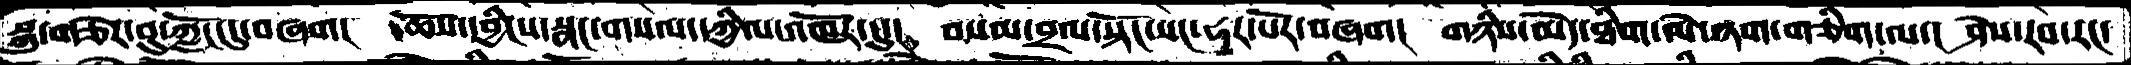སྐུ་གཅེར་བུ་ཀློང་དུ་བཞག།  ཆོས་དབྱིངས་སྣང་གསལ་དཀྱིལ་འཁོར་དུ་།  བསམ་བྲལ་སྟོང་སང་ཧར་པོར་བཞག།  གཉིས་མེད་ཐིག་ལེ་ཉག་གཅིག་ལ་།  ཤེས་རབ་རང་
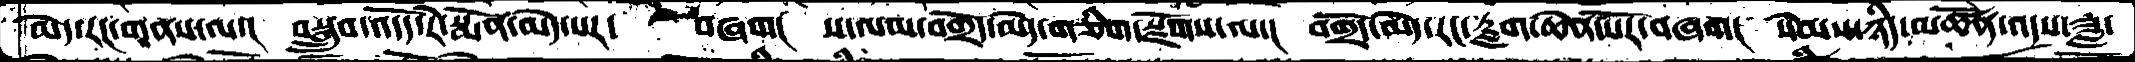མེད་རང་གནས་ལ་།  བསྒྲུབ་འདོད་རེ་སྨོན་མེད་པར་  བཞག།  ས་ལམ་བགྲོད་མེད་གཅིག་སྫོགས་ལ་།  བགྲོད་མེད་རང་རླག་ཆེན་པོར་བཞག།  སེམས་ཉིད་མཚོན་འདས་ཟླ་
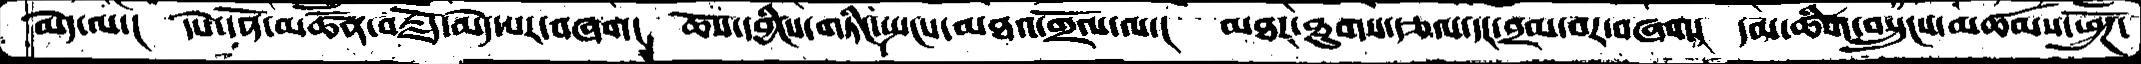མེད་ལ་།  དཔེ་དོན་མཚོན་བརྗོད་མེད་པར་བཞག།  ཆོོས་དབྱིངས་གཏིང་སྤངས་མཐའ་གྲོལ་ལ་།  མཐར་ཐུགས་རྩལ་དང་བྲལ་བར་བཞག།  དམ་ཚིག་བསྲུངས་མཚམས་ཕྱོཌ་
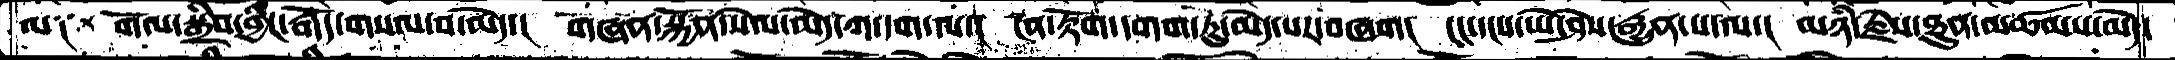ལ༑ གོལ་སྒྲིབ་བྱིང་རྒོད་གསལ་བ་མེད་། གཞན་སྐྱོན་སེལ་མེད་ཀ་དག་ལ་། ངན་རྟོག་དགག་ཏུ་མེད་པར་བཞག། ངང་དངས་ཡེ་ཤེས་རྒྱུན་པ་ལ་། མཉཾ་རྗེས་ཐུན་མཚམས་མེད་
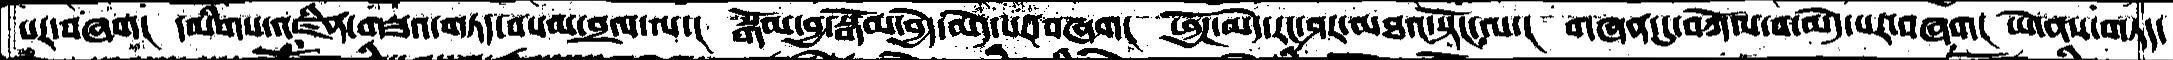པར་བཞག།  དམིགས་འཛིན་གཟའ་གཏད་བསམ་བྲལ་ལ་།  སྒོམ་བྱ་སྒོམ་བྱེད་མེད་པར་བཞག།  ཕྱོཌ་མེད་རང་ཤར་མཐའ་སྟོང་ལ་།།  གཞན་དུ་བཀོལ་བ་མེད་པར་བཞག།  ཡེ་ནས་གཏད་
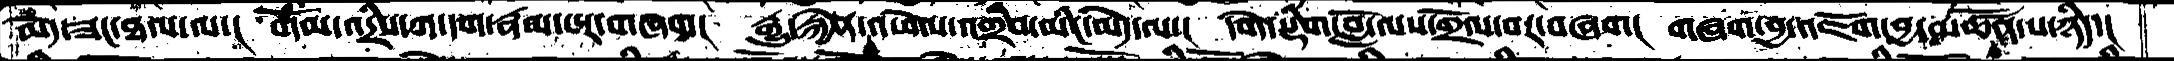མེད་ཟང་ཐལ་ལ་།  གོམ་འདྲིས་ཀ་དག་རྣམ་པར་བཞག།  རྒྱུ་རྐྱེན་འཕེལ་འགྲིབ་མིང་མེད་ལ་།  དགེ་སྡིག་བློ་ལས་གྲོལ་བར་བཞག།  གཞག་བྱ་འཇོག་བྱ་མཚོན་པ་ཉིད་།
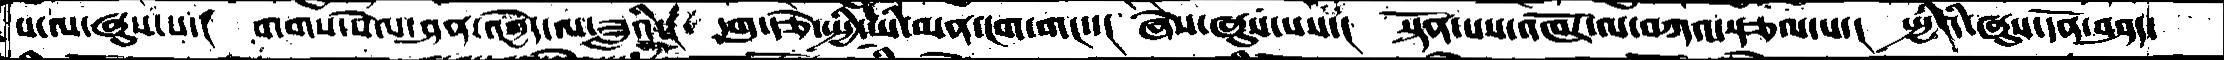པ་ལ་ཞུས་པ་། གགས་སེལ་ཤན་འགྱེད་ལ་ཟླའི་མེད་། དགུ་རྩེ་སྤྱི་ཡི་མན་ངག་གང་་། ཞེས་ཞུས་པས་། སྟོན་པས་འཁོར་ལ་བཀའ་སྩལ་པ་། སྤྱིའི་ཞུས་དོན་བཤད་
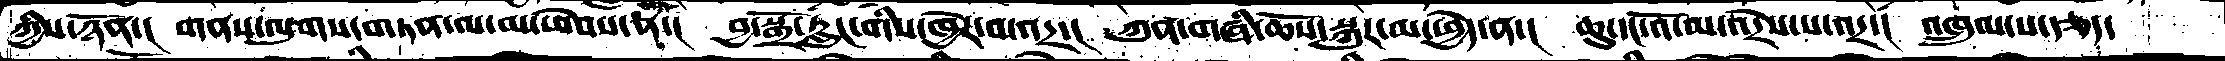ཀྱིས་ཉོན་།  གནས་ལུགས་གཏན་ལ་མ་ཕེབས་ན་།  བྱ་རྒོད་རླུང་གིས་ཁྱེར་བ་འདྲ་།  ཀུན་གཞི་ཆོས་སྐུར་མ་ཕྱེད་ན་།  ཆུ་དང་འོ་མ་འདྲེས་པ་འདྲ་།  འཁྲུལ་པ་རྩད་
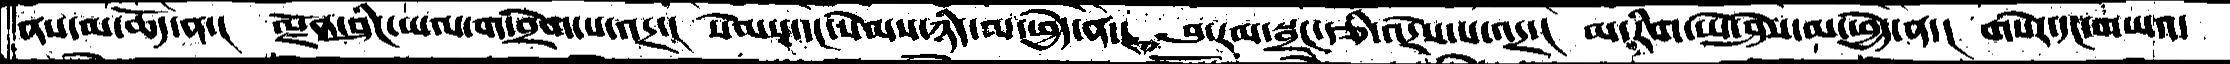ནས་མ་ཆོད་ན་།  ལྗོན་ཤིང་ཡལ་ག་བྲེག་པ་འདྲ་།  སེམས་དང་སེམས་ཉིད་མ་ཕྱེད་ན་།  བུ་རམ་སྦྲང་རྩི་འདྲེས་པ་འདྲ་།  མ་རིག་ཡེ་ཤེས་མ་ཕྱེད་ན་།  གསེར་དང་གཡའ་
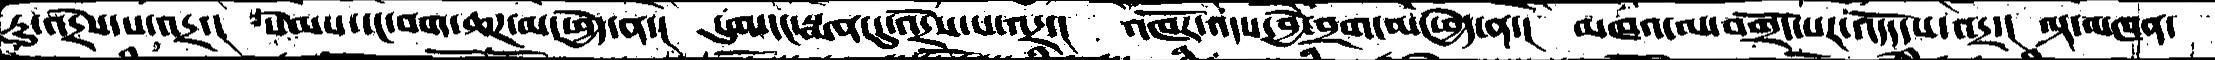རུ་འདྲེས་པ་འདྲ་།  སེམས་དང་བག་ཆཌ་མ་ཕྱེད་ན་།  དུག་དང་སྨན་དུ་འདྲེས་པ་འདྲ་། འཁོར་འདས་བྱེ་བྲག་མ་ཕྱེད་ན་།  མཁའ་ལ་བགྲོད་པར་འདོད་པ་འདྲ་།  ལྟ་མཁན་
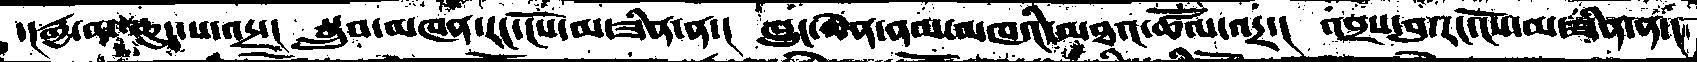་།རྒྱ་ན་ཆུད་པ་འདྲ་།  སྒྲུབ་མཁན་རང་ངོས་མ་ཟིན་ན་།  ཁྱུང་ཆེན་ནམ་མཁའི་མཐའ་ཚོལ་འདྲ་།  འབྲས་བུ་རང་ངོས་མ་ཟིན་ན་།
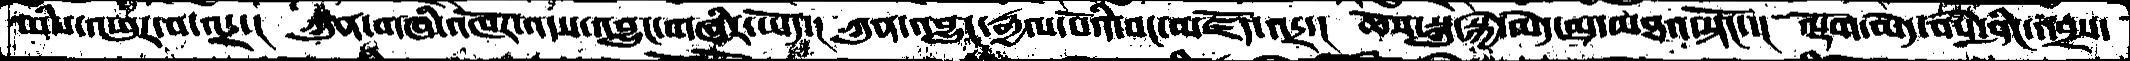ཡིས་འཕུར་བ་འདྲ་།  ཀུན་གཞི་འཁོར་འདས་འབྱུང་གཞིར་ཡོད་།  ཀུན་འབྱུང་རྒྱལ་པོའི་དབང་མཛོད་འདྲ་།  ཆོས་སྐུ་སྐྱེ་མེད་མུ་མཐའ་སྟོང་།  ལྡོག་མེད་བསེ་ཤིང་འབྲས་
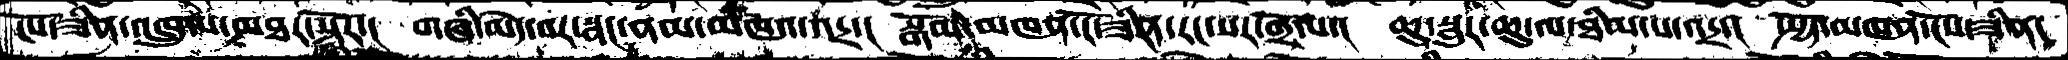ངོས་ཟིན་འཁྲུལ་མཐར་སྟོར་།  གཞི་མེད་བར་སྣང་ནམ་མཁའ་འདྲ་།  སྒོམ་མཁན་ངོ་ཟིན་རང་སར་གྲོལ་།  ཆུ་སྦུར་ཆུ་ལ་ཐིམ་པ་འདྲ་།  སྤྱོད་མཁན་ངོས་ཟིན་
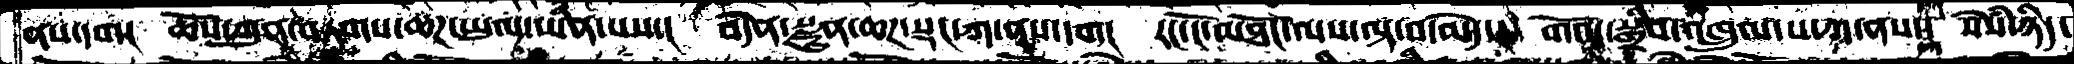ནས་དག། ཆོས་ཀུན་བཏགས་ཆཌ་ཡུལ་ཡིན་པས་། བདེན་སྫུན་ཆཌ་སྡང་ཀ་ནས་དག། རང་ངོ་མཐོང་ལས་ལྟ་བ་མེད་། གོལ་སྒྲིབ་འཁྲུལ་པ་ཀ་ནས་དག། སེཾས་ཉིད་
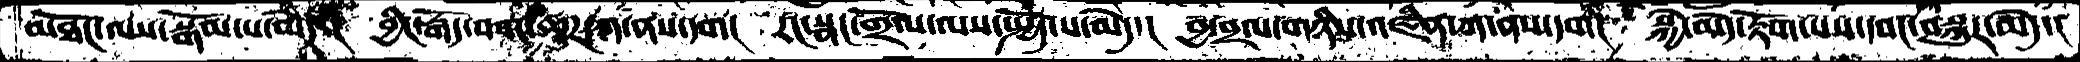མཐོང་ལས་སྒོམ་པ་མེད་།  བྱིང་རྒོད་བག་ཆཌ་ཀ་ནས་དག།  རང་སྣང་གྲོལ་ལས་སྤྱོད་པ་མེད་།  བྱ་བྲལ་གཉིས་འཛིན་ཀ་ནས་དག།  སྐྱེ་མེད་རྟོག་པས་དབང་བསྐུར་མེད་།
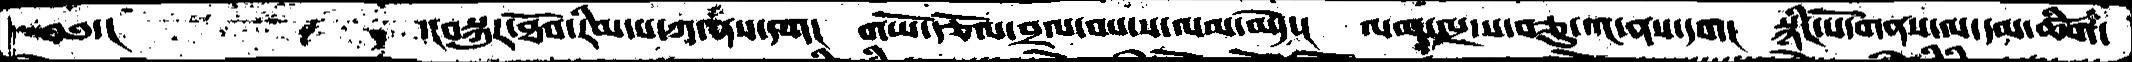༄༅་།    ་།བསྐུར་ཐོབ་རིམ་པ་ཀ་ནས་དག། གཡོ་རྩོལ་བྲལ་བས་ས་ལམ་མེད་། ལམ་ལྔ་ས་བཅུ་འང་ནས་དག། སྙིང་པོ་གནས་ལ་དམ་ཚིག་
